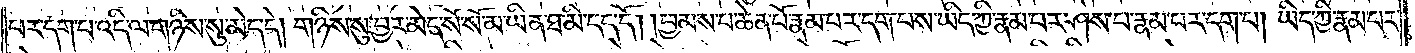པར་དག་པ་འདི་ལ་གཉིས་སུ་མེད་དེ། གཉིས་སུ་བྱར་མེད་སོ་སོ་མ་ཡིན་ཐ་མི་དད་དོ། །བྱམས་པ་ཆེན་པོ་རྣམ་པར་དག་པས་ཡིད་ཀྱི་རྣམ་པར་ཤེས་པ་རྣམ་པར་དག་པ། ཡིད་ཀྱི་རྣམ་པར་
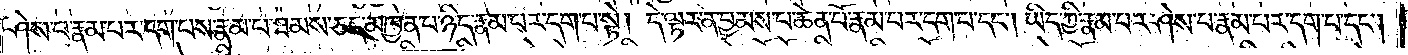ཤེས་པ་རྣམ་པར་དག་པས་རྣམ་པ་ཐམས་ཅད་མཁྱེན་པ་ཉིད་རྣམ་པར་དག་པ་སྟེ། དེ་ལྟར་ན་བྱམས་པ་ཆེན་པོ་རྣམ་པར་དག་པ་དང༌། ཡིད་ཀྱི་རྣམ་པར་ཤེས་པ་རྣམ་པར་དག་པ་དང༌།
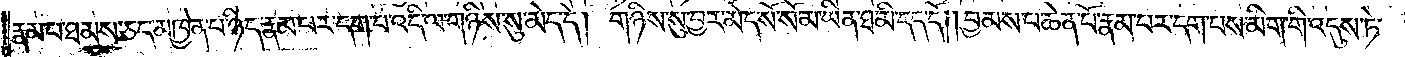རྣམ་པ་ཐམས་ཅད་མཁྱེན་པ་ཉིད་རྣམ་པར་དག་པ་འདི་ལ་གཉིས་སུ་མེད་དེ། གཉིས་སུ་བྱར་མེད་སོ་སོ་མ་ཡིན་ཐ་མི་དད་དོ། །བྱམས་པ་ཆེན་པོ་རྣམ་པར་དག་པས་མིག་གི་འདུས་ཏེ་
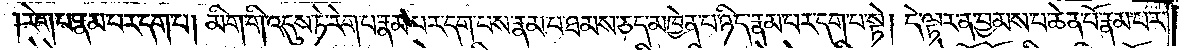རེག་པ་རྣམ་པར་དག་པ། མིག་གི་འདུས་ཏེ་རེག་པ་རྣམ་པར་དག་པས་རྣམ་པ་ཐམས་ཅད་མཁྱེན་པ་ཉིད་རྣམ་པར་དག་པ་སྟེ། དེ་ལྟར་ན་བྱམས་པ་ཆེན་པོ་རྣམ་པར་
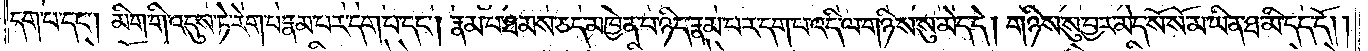དག་པ་དང༌། མིག་གི་འདུས་ཏེ་རེག་པ་རྣམ་པར་དག་པ་དང༌། རྣམ་པ་ཐམས་ཅད་མཁྱེན་པ་ཉིད་རྣམ་པར་དག་པ་འདི་ལ་གཉིས་སུ་མེད་དེ། གཉིས་སུ་བྱར་མེད་སོ་སོ་མ་ཡིན་ཐ་མི་དད་དོ། །
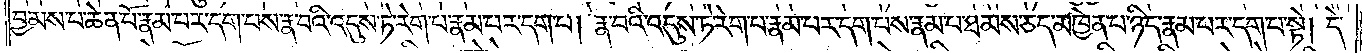བྱམས་པ་ཆེན་པོ་རྣམ་པར་དག་པས་རྣ་བའི་འདུས་ཏེ་རེག་པ་རྣམ་པར་དག་པ། རྣ་བའི་འདུ་སྟེ་རེག་པ་རྣམ་པར་དག་པས་རྣམ་པ་ཐམས་ཅད་མཁྱེན་པ་ཉིད་རྣམ་པར་དག་པ་སྟེ། དེ་
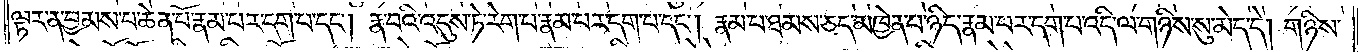ལྟར་ན་བྱམས་པ་ཆེན་པོ་རྣམ་པར་དག་པ་དང༌། རྣ་བའི་འདུས་ཏེ་རེག་པ་རྣམ་པར་དག་པ་དང༌། རྣམ་པ་ཐམས་ཅད་མཁྱེན་པ་ཉིད་རྣམ་པར་དག་པ་འདི་ལ་གཉིས་སུ་མེད་དེ། གཉིས་
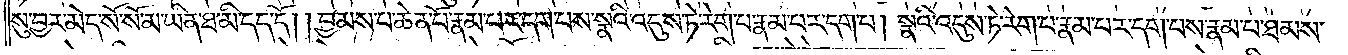སུ་བྱར་མེད་སོ་སོ་མ་ཡིན་ཐ་མི་དད་དོ། །བྱམས་པ་ཆེན་པོ་རྣམ་པར་དག་པས་སྣའི་འདུས་ཏེ་རེག་པ་རྣམ་པར་དག་པ། སྣའི་འདུས་ཏེ་རེག་པ་རྣམ་པར་དག་པས་རྣམ་པ་ཐམས་
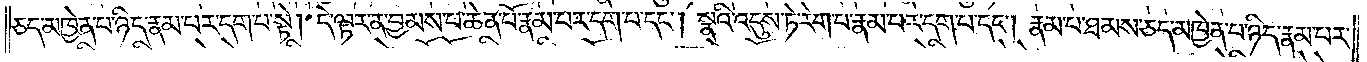ཅད་མཁྱེན་པ་ཉིད་རྣམ་པར་དག་པ་སྟེ། དེ་ལྟར་ན་བྱམས་པ་ཆེན་པོ་རྣམ་པར་དག་པ་དང༌། སྣའི་འདུས་ཏེ་རེག་པ་རྣམ་པར་དག་པ་དང༌། རྣམ་པ་ཐམས་ཅད་མཁྱེན་པ་ཉིད་རྣམ་པར་
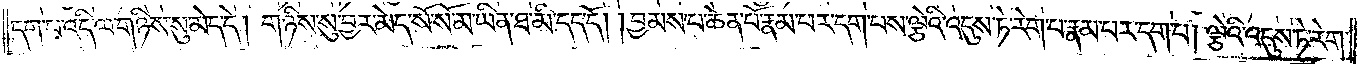དག་པ་འདི་ལ་གཉིས་སུ་མེད་དེ། གཉིས་སུ་བྱར་མེད་སོ་སོ་མ་ཡིན་ཐ་མི་དད་དོ། །བྱམས་པ་ཆེན་པོ་རྣམ་པར་དག་པས་ལྕེའི་འདུས་ཏེ་རེག་པ་རྣམ་པར་དག་པ། ལྕེའི་འདུས་ཏེ་རེག་
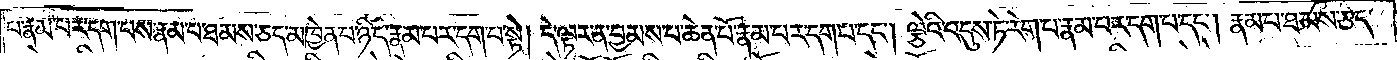པ་རྣམ་པར་དག་པས་རྣམ་པ་ཐམས་ཅད་མཁྱེན་པ་ཉིད་རྣམ་པར་དག་པ་སྟེ། དེ་ལྟར་ན་བྱམས་པ་ཆེན་པོ་རྣམ་པར་དག་པ་དང༌། ལྕེའི་འདུས་ཏེ་རེག་པ་རྣམ་པར་དག་པ་དང༌། རྣམ་པ་ཐམས་ཅད་
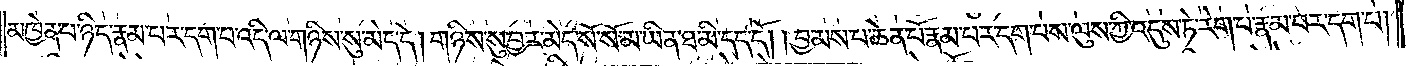མཁྱེན་པ་ཉིད་རྣམ་པར་དག་པ་འདི་ལ་གཉིས་སུ་མེད་དེ། གཉིས་སུ་བྱར་མེད་སོ་སོ་མ་ཡིན་ཐ་མི་དད་དོ། །བྱམས་པ་ཆེན་པོ་རྣམ་པར་དག་པས་ལུས་ཀྱི་འདུས་ཏེ་རེག་པ་རྣམ་པར་དག་པ།
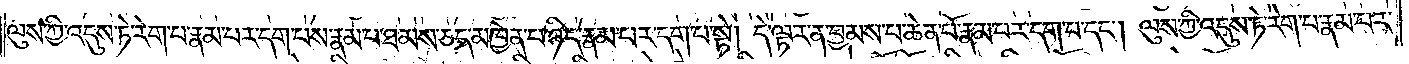ལུས་ཀྱི་འདུས་ཏེ་རེག་པ་རྣམ་པར་དག་པས་རྣམ་པ་ཐམས་ཅད་མཁྱེན་པ་ཉིད་རྣམ་པར་དག་པ་སྟེ། དེ་ལྟར་ན་བྱམས་པ་ཆེན་པོ་རྣམ་པར་དག་པ་དང༌། ལུས་ཀྱི་འདུས་ཏེ་རེག་པ་རྣམ་པར་
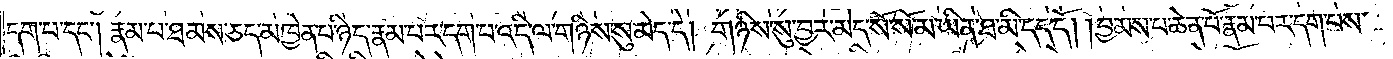དག་པ་དང༌། རྣམ་པ་ཐམས་ཅད་མཁྱེན་པ་ཉིད་རྣམ་པར་དག་པ་འདི་ལ་གཉིས་སུ་མེད་དེ། གཉིས་སུ་བྱར་མེད་སོ་སོ་མ་ཡིན་ཐ་མི་དད་དོ། །བྱམས་པ་ཆེན་པོ་རྣམ་པར་དག་པས་
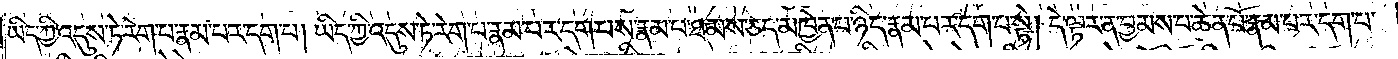ཡིད་ཀྱི་འདུས་ཏེ་རེག་པ་རྣམ་པར་དག་པ། ཡིད་ཀྱི་འདུས་ཏེ་རེག་པ་རྣམ་པར་དག་པས་རྣམ་པ་ཐམས་ཅད་མཁྱེན་པ་ཉིད་རྣམ་པར་དག་པ་སྟེ། དེ་ལྟར་ན་བྱམས་པ་ཆེན་པོ་རྣམ་པར་དག་པ་
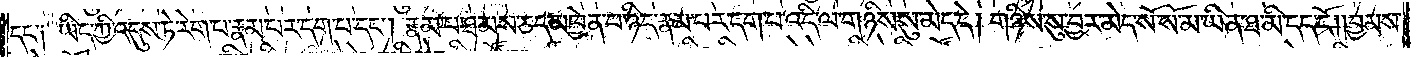དང་༑ ཡིད་ཀྱི་འདུས་ཏེ་རེག་པ་རྣམ་པར་དག་པ་དང༌། རྣམ་པ་ཐམས་ཅད་མཁྱེན་པ་ཉིད་རྣམ་པར་དག་པ་འདི་ལ་གཉིས་སུ་མེད་དེ། གཉིས་སུ་བྱར་མེད་སོ་སོ་མ་ཡིན་ཐ་མི་དད་དོ། །བྱམས་
